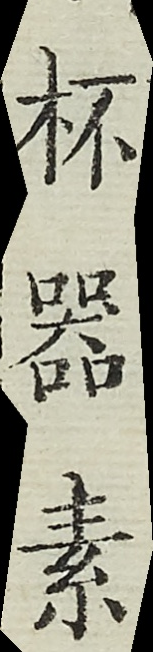杯器素
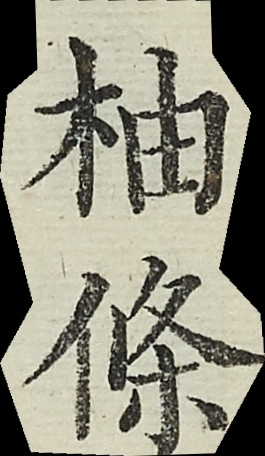柚條
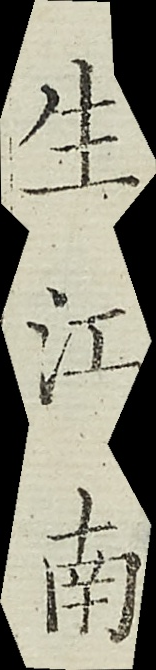生江南
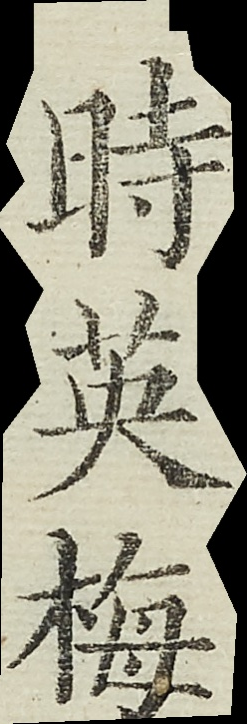時英梅
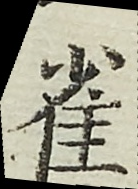雀
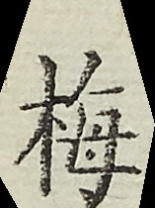梅
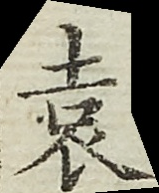袁
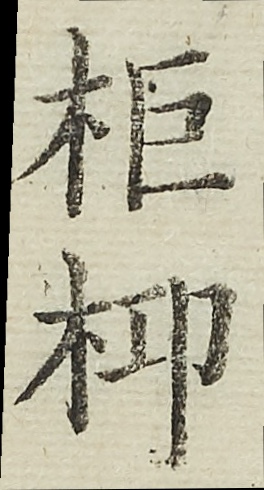柜桏
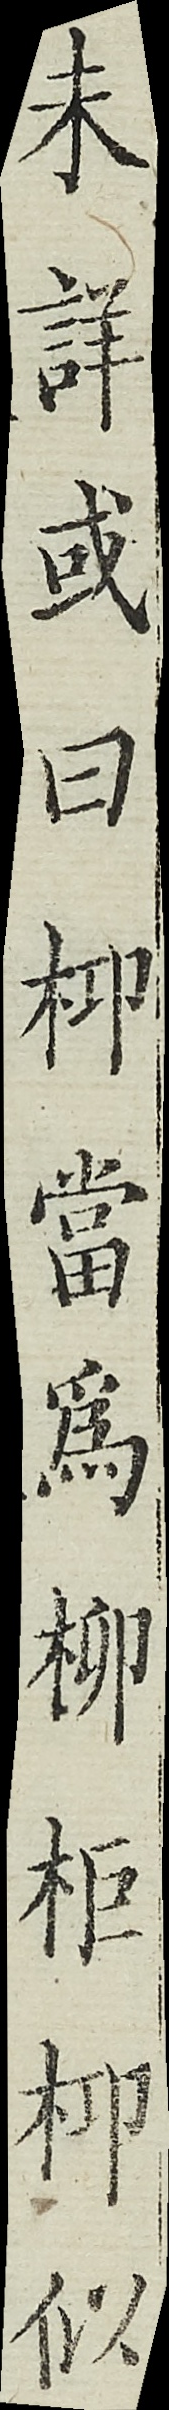未詳或曰桏當為柳柜桏似
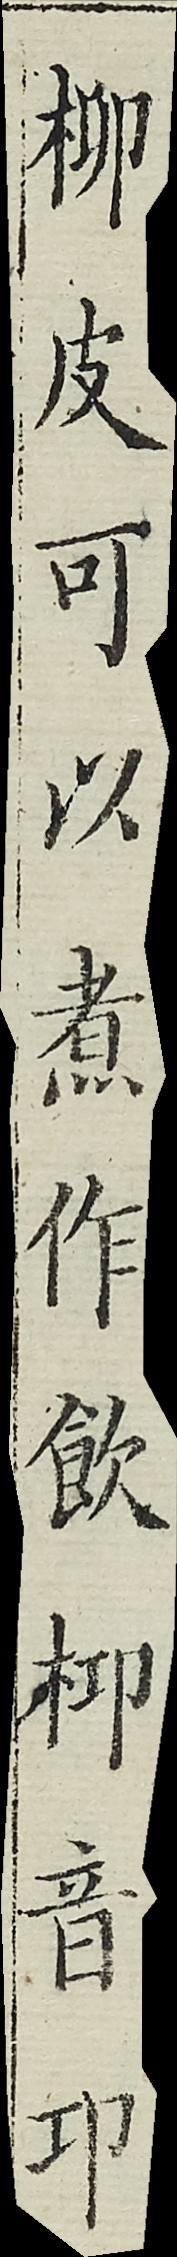柳皮可以煮作飲桏音邛
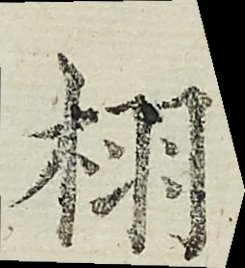栩
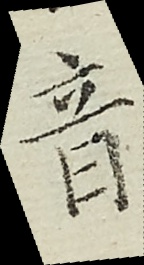音
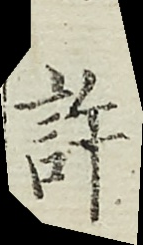許
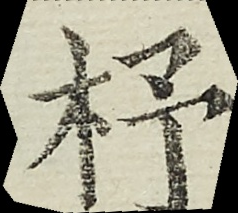杼
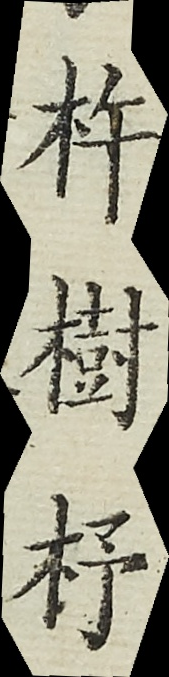杵樹杼
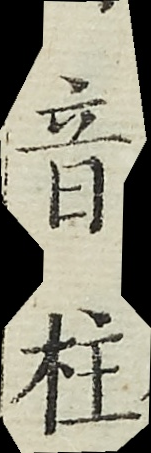音柱
